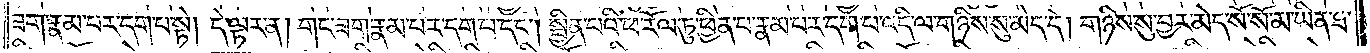ཟག་རྣམ་པར་དག་པ་སྟེ། དེ་ལྟར་ན། གང་ཟག་རྣམ་པར་དག་པ་དང༌། སྦྱིན་པའི་ཕ་རོལ་ཏུ་ཕྱིན་པ་རྣམ་པར་དག་པ་འདི་ལ་གཉིས་སུ་མེད་དེ། གཉིས་སུ་བྱར་མེད་སོ་སོ་མ་ཡིན་ཐ་
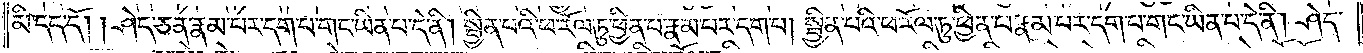མི་དད་དོ། །ཤེད་ཅན་རྣམ་པར་དག་པ་གང་ཡིན་པ་དེ་ནི། སྦྱིན་པའི་ཕ་རོལ་ཏུ་ཕྱིན་པ་རྣམ་པར་དག་པ། སྦྱིན་པའི་ཕ་རོལ་ཏུ་ཕྱིན་པ་རྣམ་པར་དག་པ་གང་ཡིན་པ་དེ་ནི། ཤེད་
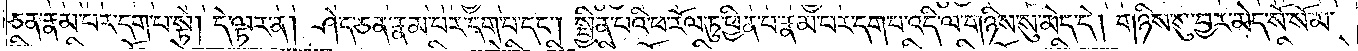ཅན་རྣམ་པར་དག་པ་སྟེ། དེ་ལྟར་ན། ཤེད་ཅན་རྣམ་པར་དག་པ་དང༌། སྦྱིན་པའི་ཕ་རོལ་ཏུ་ཕྱིན་པ་རྣམ་པར་དག་པ་འདི་ལ་གཉིས་སུ་མེད་དེ། གཉིས་སུ་བྱར་མེད་སོ་སོ་མ་
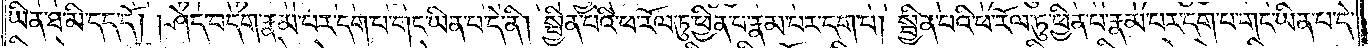ཡིན་ཐ་མི་དད་དོ། །ཤེད་བདག་རྣམ་པར་དག་པ་གང་ཡིན་པ་དེ་ནི། སྦྱིན་པའི་ཕ་རོལ་ཏུ་ཕྱིན་པ་རྣམ་པར་དག་པ། སྦྱིན་པའི་ཕ་རོལ་ཏུ་ཕྱིན་པ་རྣམ་པར་དག་པ་གང་ཡིན་པ་དེ་
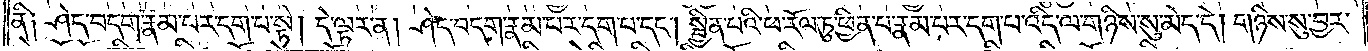ནི། ཤེད་བདག་རྣམ་པར་དག་པ་སྟེ། དེ་ལྟར་ན། ཤེད་བདག་རྣམ་པར་དག་པ་དང༌། སྦྱིན་པའི་ཕ་རོལ་ཏུ་ཕྱིན་པ་རྣམ་པར་དག་པ་འདི་ལ་གཉིས་སུ་མེད་དེ། གཉིས་སུ་བྱར་
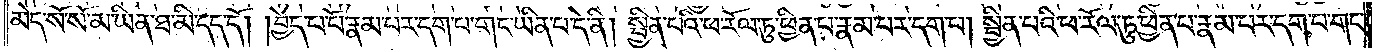མེད་སོ་སོ་མ་ཡིན་ཐ་མི་དད་དོ། །བྱེད་པ་པོ་རྣམ་པར་དག་པ་གང་ཡིན་པ་དེ་ནི། སྦྱིན་པའི་ཕ་རོལ་ཏུ་ཕྱིན་པ་རྣམ་པར་དག་པ། སྦྱིན་པའི་ཕ་རོལ་ཏུ་ཕྱིན་པ་རྣམ་པར་དག་པ་གང་
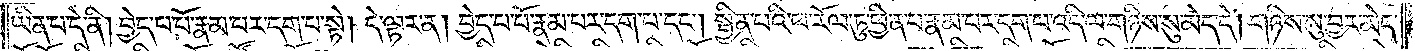ཡིན་པ་དེ་ནི། བྱེད་པ་པོ་རྣམ་པར་དག་པ་སྟེ། དེ་ལྟར་ན། བྱེད་པ་པོ་རྣམ་པར་དག་པ་དང༌། སྦྱིན་པའི་ཕ་རོལ་ཏུ་ཕྱིན་པ་རྣམ་པར་དག་པ་འདི་ལ་གཉིས་སུ་མེད་དེ། གཉིས་སུ་བྱར་མེད་
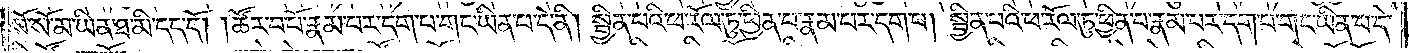སོ་སོ་མ་ཡིན་ཐ་མི་དད་དོ། །ཚོར་བ་པོ་རྣམ་པར་དག་པ་གང་ཡིན་པ་དེ་ནི། སྦྱིན་པའི་ཕ་རོལ་ཏུ་ཕྱིན་པ་རྣམ་པར་དག་པ། སྦྱིན་པའི་ཕ་རོལ་ཏུ་ཕྱིན་པ་རྣམ་པར་དག་པ་གང་ཡིན་པ་དེ་
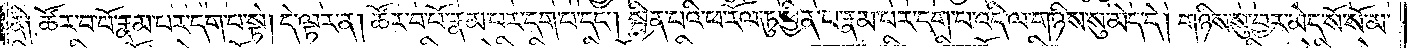ནི། ཚོར་བ་པོ་རྣམ་པར་དག་པ་སྟེ། དེ་ལྟར་ན། ཚོར་བ་པོ་རྣམ་པར་དག་པ་དང༌། སྦྱིན་པའི་ཕ་རོལ་ཏུ་ཕྱིན་པ་རྣམ་པར་དག་པ་འདི་ལ་གཉིས་སུ་མེད་དེ། གཉིས་སུ་བྱར་མེད་སོ་སོ་མ་
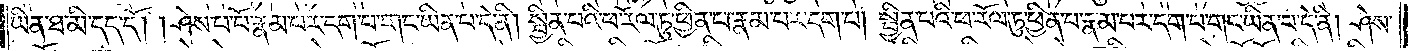ཡིན་ཐ་མེད་དད་དོ། །ཤེས་པ་པོ་རྣམ་པར་དག་པ་གང་ཡིན་པ་དེ་ནི། སྦྱིན་པའི་ཕ་རོལ་ཏུ་ཕྱིན་པ་རྣམ་པར་དག་པ། སྦྱིན་པའི་ཕ་རོལ་ཏུ་ཕྱིན་པ་རྣམ་པར་དག་པ་གང་ཡིན་པ་དེ་ནི། ཤེས་
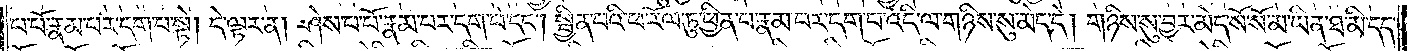པ་པོ་རྣམ་པར་དག་པ་སྟེ། དེ་ལྟར་ན། ཤེས་པ་པོ་རྣམ་པར་དག་པ་དང༌། སྦྱིན་པའི་ཕ་རོལ་ཏུ་ཕྱིན་པ་རྣམ་པར་དག་པ་འདི་ལ་གཉིས་སུ་མེད་དེ། གཉིས་སུ་བྱར་མེད་སོ་སོ་མ་ཡིན་ཐ་མི་དད་
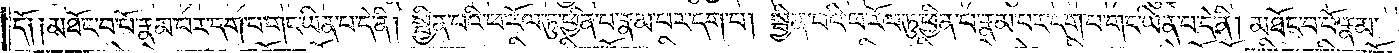དོ། །མཐོང་བ་པོ་རྣམ་པར་དག་པ་གང་ཡིན་པ་དེ་ནི། སྦྱིན་པའི་ཕ་རོལ་ཏུ་ཕྱིན་པ་རྣམ་པར་དག་པ། སྦྱིན་པའི་ཕ་རོལ་ཏུ་ཕྱིན་པ་རྣམ་པར་དག་པ་གང་ཡིན་པ་དེ་ནི། མཐོང་བ་པོ་རྣམ་
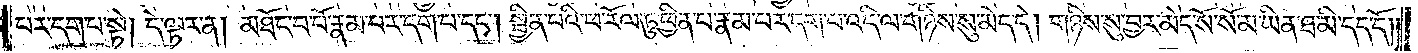པར་དག་པ་སྟེ། དེ་ལྟར་ན། མཐོང་བ་པོ་རྣམ་པར་དག་པ་དང༌། སྦྱིན་པའི་ཕ་རོལ་ཏུ་ཕྱིན་པ་རྣམ་པར་དག་པ་འདི་ལ་གཉིས་སུ་མེད་དེ། གཉིས་སུ་བྱར་མེད་སོ་སོ་མ་ཡིན་ཐ་མི་དད་དོ། །
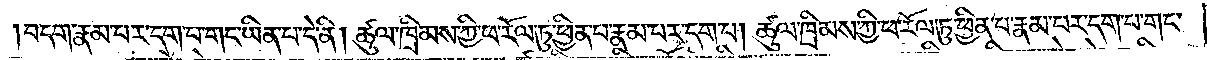བདག་རྣམ་པར་དག་པ་གང་ཡིན་པ་དེ་ནི། ཚུལ་ཁྲིམས་ཀྱི་ཕ་རོལ་ཏུ་ཕྱིན་པ་རྣམ་པར་དག་པ། ཚུལ་ཁྲིམས་ཀྱི་ཕ་རོལ་ཏུ་ཕྱིན་པ་རྣམ་པར་དག་པ་གང་
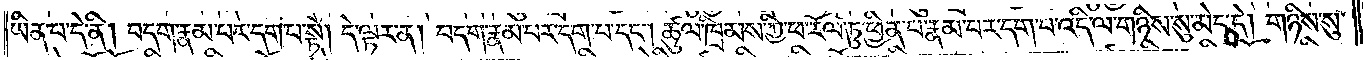ཡིན་པ་དེ་ནི། བདག་རྣམ་པར་དག་པ་སྟེ། དེ་ལྟར་ན། བདག་རྣམ་པར་དག་པ་དང༌། ཚུལ་ཁྲིམས་ཀྱི་ཕ་རོལ་ཏུ་ཕྱིན་པ་རྣམ་པར་དག་པ་འདི་ལ་གཉིས་སུ་མེད་དེ། གཉིས་སུ་
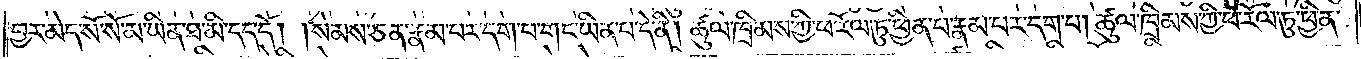བྱར་མེད་སོ་སོ་མ་ཡིན་ཐ་མི་དད་དོ། །སེམས་ཅན་རྣམ་པར་དག་པ་གང་ཡིན་པ་དེ་ནི། ཚུལ་ཁྲིམས་ཀྱི་ཕ་རོལ་ཏུ་ཕྱིན་པ་རྣམ་པར་དག་པ། ཚུལ་ཁྲིམས་ཀྱི་ཕ་རོལ་ཏུ་ཕྱིན་
